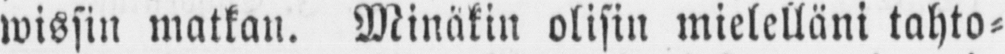wissin matkan. Minäkin olisin mielelläni tahto-
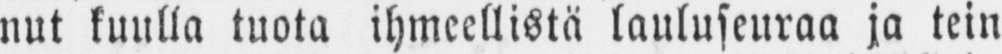nut kuulla tuota ihmeellistä lauluseuraa ja tein
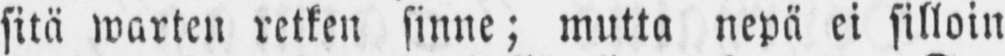sitä warten retken sinne; mutta nepä ei silloin
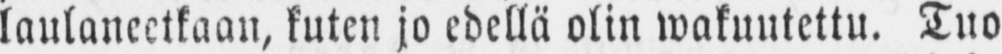laulaneetkaan, kuten jo edellä olin wakuutettu. Tuo
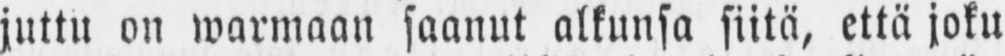juttu on warmaan saanut alkunsa siitä, että joku
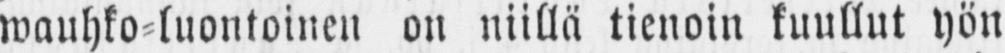wauhko-luontoinen on niillä tienoin kuullut yön
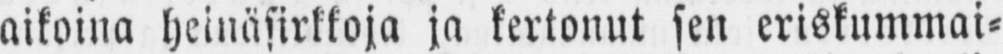aikoina heinäsirkkoja ja kertonut sen eriskummai-
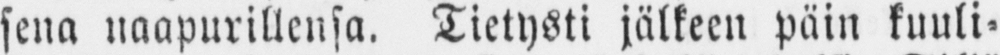sena naapurillensa. Tietysti jälkeen päin kuuli-
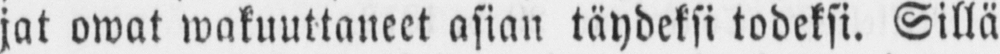jat owat wakuuttaneet asian täydeksi todeksi. Sillä
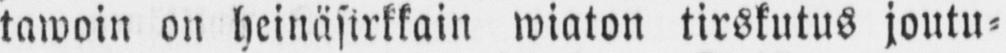tawoin on heinäsirkkain wiaton tirskutus joutu-
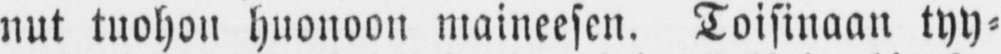nut tuohon huonoon maineesen. Toisinaan tyy-
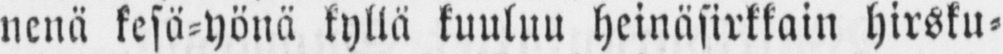nenä kesä-yönä kyllä kuuluu heinäsirkkain hirsku-
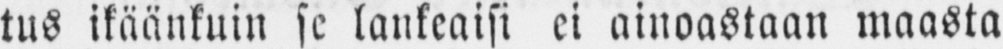tus ikäänkuin se lankeaisi ei ainoastaan maasta
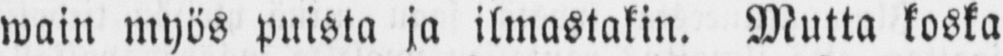wain myös puista ja ilmastakin. Mutta koska
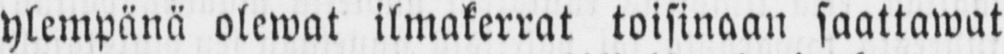ylempänä olewat ilmakerrat toisinaan saattawat
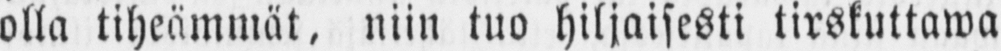olla tiheämmät, niin tuo hiljaisesti tirskuttawa
